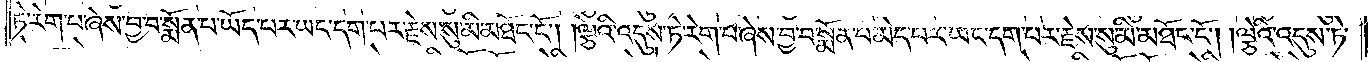ཏེ་རེག་པ་ཞེས་བྱ་བ་སྨོན་པ་ཡོད་པར་ཡང་དག་པར་རྗེས་སུ་མི་མཐོང་ངོ༌། །ལྕེའི་འདུས་ཏེ་རེག་པ་ཞེས་བྱ་བ་སྨོན་པ་མེད་པར་ཡང་དག་པར་རྗེས་སུ་མི་མཐོང་ངོ༌། །ལྕེའི་འདུས་ཏེ་
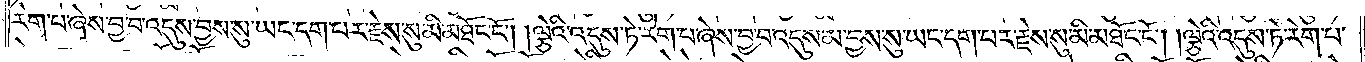རེག་པ་ཞེས་བྱ་བ་འདུས་བྱས་སུ་ཡང་དག་པར་རྗེས་སུ་མི་མཐོང་ངོ༌། །ལྕེའི་འདུས་ཏེ་རེག་པ་ཞེས་བྱ་བ་འདུས་མ་བྱས་སུ་ཡང་དག་པར་རྗེས་སུ་མི་མཐོང་ངོ༌། །ལྕེའི་འདུས་ཏེ་རེག་པ་
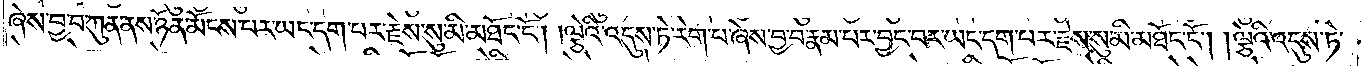ཞེས་བྱ་བ་ཀུན་ནས་ཉོན་མོངས་པར་ཡང་དག་པར་རྗེས་སུ་མི་མཐོང་ངོ༌། །ལྕེའི་འདུས་ཏེ་རེག་པ་ཞེས་བྱ་བ་རྣམ་པར་བྱང་བར་ཡང་དག་པར་རྗེས་སུ་མི་མཐོང་ངོ༌། །ལྕེའི་འདུས་ཏེ་
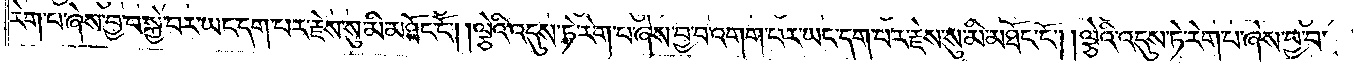རེག་པ་ཞེས་བྱ་བ་སྐྱེ་བར་ཡང་དག་པར་རྗེས་སུ་མི་མཐོང་ངོ༌། །ལྕེའི་འདུས་ཏེ་རེག་པ་ཞེས་བྱ་བ་འགག་པར་ཡང་དག་པར་རྗེས་སུ་མི་མཐོང་ངོ༌། །ལྕེའི་འདུས་ཏེ་རེག་པ་ཞེས་བྱ་བ་
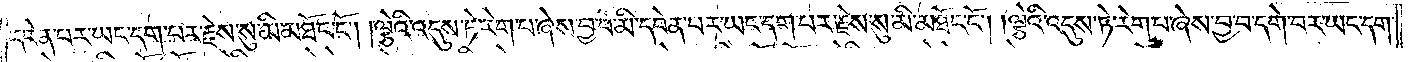དབེན་པར་ཡང་དག་པར་རྗེས་སུ་མི་མཐོང་ངོ༌། །ལྕེའི་འདུས་ཏེ་རེག་པ་ཞེས་བྱ་བ་མི་དབེན་པར་ཡང་དག་པར་རྗེས་སུ་མི་མཐོང་ངོ༌། །ལྕེའི་འདུས་ཏེ་རེག་པ་ཞེས་བྱ་བ་དགེ་བར་ཡང་དག་
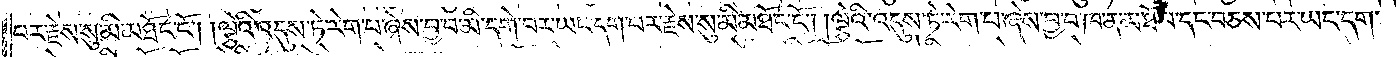པར་རྗེས་སུ་མི་མཐོང་ངོ༌། །ལྕེའི་འདུས་ཏེ་རེག་པ་ཞེས་བྱ་བ་མི་དགེ་བར་ཡང་དག་པར་རྗེས་སུ་མི་མཐོང་ངོ༌། །ལྕེའི་འདུས་ཏེ་རེག་པ་ཞེས་བྱ་བ་ཁ་ན་མ་ཐོ་བ་དང་བཅས་པར་ཡང་དག་
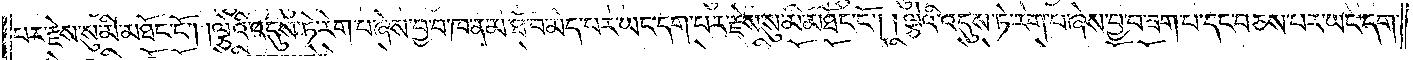པར་རྗེས་སུ་མི་མཐོང་ངོ༌། །ལྕེའི་འདུས་ཏེ་རེག་པ་ཞེས་བྱ་བ་ཁ་ན་མ་ཐོ་བ་མེད་པར་ཡང་དག་པར་རྗེས་སུ་མི་མཐོང་ངོ༌། །ལྕེའི་འདུས་ཏེ་རེག་པ་ཞེས་བྱ་བ་ཟག་པ་དང་བཅས་པར་ཡང་དག་
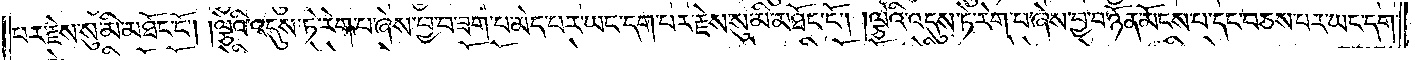པར་རྗེས་སུ་མི་མཐོང་ངོ༌། །ལྕེའི་འདུས་ཏེ་རེག་པ་ཞེས་བྱ་བ་ཟག་པ་མེད་པར་ཡང་དག་པར་རྗེས་སུ་མི་མཐོང་ངོ༌། །ལྕེའི་འདུས་ཏེ་རེག་པ་ཞེས་བྱ་བ་ཉོན་མོངས་པ་དང་བཅས་པར་ཡང་དག་
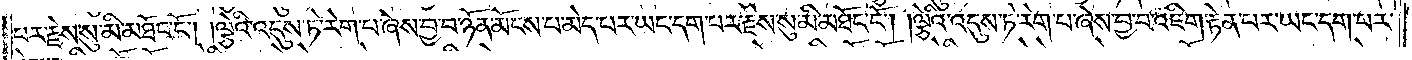པར་རྗེས་སུ་མི་མཐོང་ངོ༌། །ལྕེའི་འདུས་ཏེ་རེག་པ་ཞེས་བྱ་བ་ཉོན་མོངས་པ་མེད་པར་ཡང་དག་པར་རྗེས་སུ་མི་མཐོང་ངོ༌། །ལྕེའི་འདུས་ཏེ་རེག་པ་ཞེས་བྱ་བ་འཇིག་རྟེན་པར་ཡང་དག་པར་
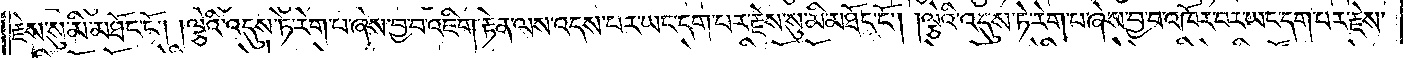རྗེས་སུ་མི་མཐོང་ངོ༌། །ལྕེའི་འདུས་ཏེ་རེག་པ་ཞེས་བྱ་བ་འཇིག་རྟེན་ལས་འདས་པར་ཡང་དག་པར་རྗེས་སུ་མི་མཐོང་ངོ༌། །ལྕེའི་འདུས་ཏེ་རེག་པ་ཞེས་བྱ་བ་འཁོར་བར་ཡང་དག་པར་རྗེས་
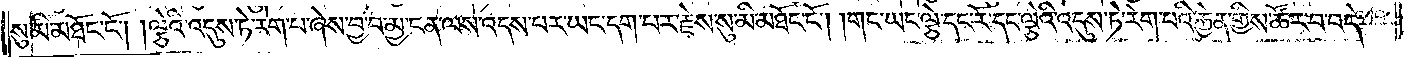སུ་མི་མཐོང་ངོ༌། །ལྕེའི་འདུས་ཏེ་རེག་པ་ཞེས་བྱ་བ་མྱ་ངན་ལས་འདས་པར་ཡང་དག་པར་རྗེས་སུ་མི་མཐོང་ངོ༌། །གང་ཡང་ལྕེ་དང་རོ་དང་ལྕེའི་འདུས་ཏེ་རེག་པའི་རྐྱེན་གྱིས་ཚོར་བ་བདེ་
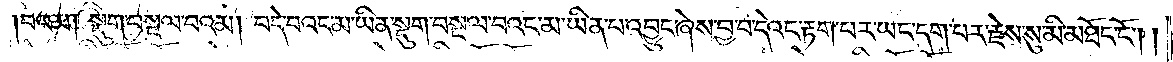བའམ། སྡུག་བསྔལ་བའམ། བདེ་བའང་མ་ཡིན་སྡུག་བསྔལ་བའང་མ་ཡིན་པ་འབྱུང་ཞེས་བྱ་བ་དེའང་རྟག་པར་ཡང་དག་པར་རྗེས་སུ་མི་མཐོང་ངོ༌། །
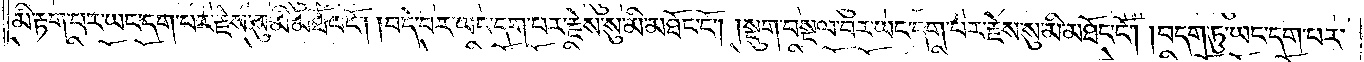མི་རྟག་པར་ཡང་དག་པར་རྗེས་སུ་མི་མཐོང་ངོ༌། །བདེ་བར་ཡང་དག་པར་རྗེས་སུ་མི་མཐོང་ངོ༌། །སྡུག་བསྔལ་བར་ཡང་དག་པར་རྗེས་སུ་མི་མཐོང་ངོ༌། །བདག་ཏུ་ཡང་དག་པར་
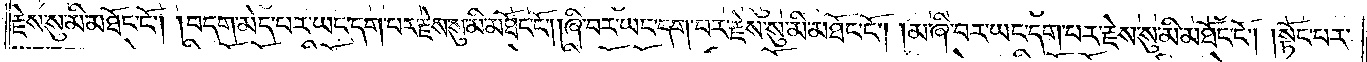རྗེས་སུ་མི་མཐོང་ངོ༌། །བདག་མེད་པར་ཡང་དག་པར་རྗེས་སུ་མི་མཐོང་ངོ༌། །ཞི་བར་ཡང་དག་པར་རྗེས་སུ་མི་མཐོང་ངོ༌། །མ་ཞི་བར་ཡང་དག་པར་རྗེས་སུ་མི་མཐོང་ངོ༌། །སྟོང་པར་
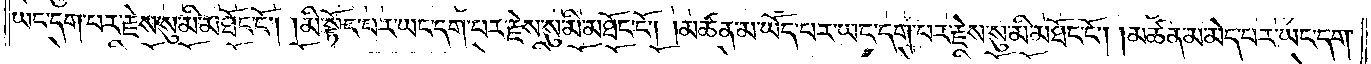ཡང་དག་པར་རྗེས་སུ་མི་མཐོང་ངོ༌། །མི་སྟོང་པར་ཡང་དག་པར་རྗེས་སུ་མི་མཐོང་ངོ༌། །མཚན་མ་ཡོད་པར་ཡང་དག་པར་རྗེས་སུ་མི་མཐོང་ངོ༌། །མཚན་མ་མེད་པར་ཡང་དག་
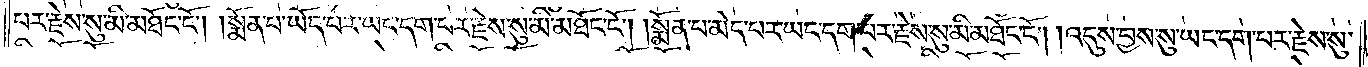པར་རྗེས་སུ་མི་མཐོང་ངོ༌། །སྨོན་པ་ཡོད་པར་ཡང་དག་པར་རྗེས་སུ་མི་མཐོང་ངོ༌། །སྨོན་པ་མེད་པར་ཡང་དག་པར་རྗེས་སུ་མི་མཐོང་ངོ༌། །འདུས་བྱས་སུ་ཡང་དག་པར་རྗེས་སུ་
